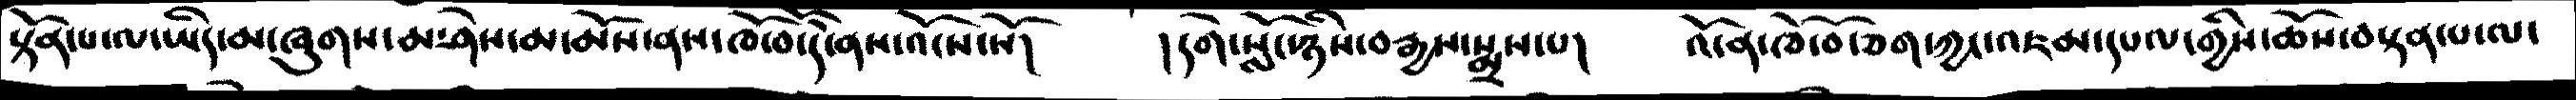སྟོན་པ་ལ་ཡིད་མ་ཞུགས་མ་ཤེས་མ་མོས་ནས་ཁོ་བོ་དེ་ནས་འོངས་སོ།   །དགེ་སློང་ཉིས་བརྒྱས་སྨྲས་པ།  འོ་ན་ཁོ་བོ་ཅག་ཀྱང་འཇམ་དཔལ་གྱིས་ཆོས་བསྟན་པ་ལ་
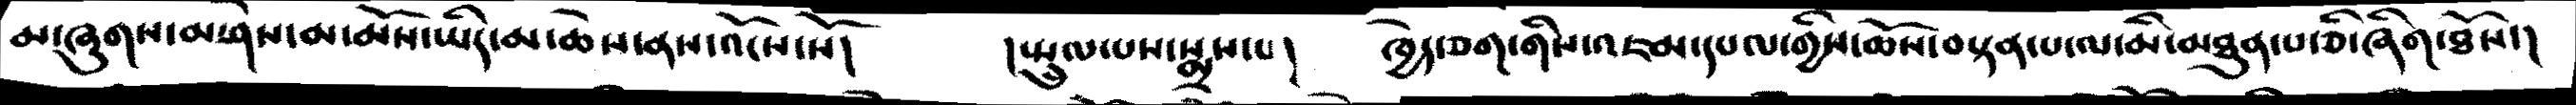མ་ཞུགས་མ་ཤེས་མ་མོས་ཡིད་མ་ཆེས་ནས་འོངས་སོ།  །སྤྲུལ་པས་སྨྲས་པ།  ཁྱེད་ཅག་གིས་འཇམ་དཔལ་གྱིས་ཆོས་བསྟན་པ་ལ་མི་མཐུན་པ་ཅི་ཞིག་ཐོས་།
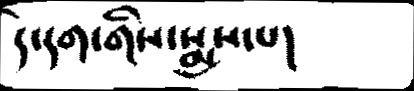དེ་དག་གིས་སྨྲས་པ།
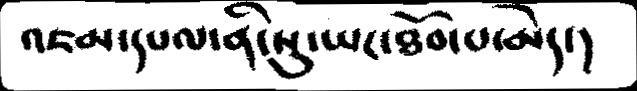འཇམ་དཔལ་ནི་སུ་ཡང་ཐོབ་པ་མེད་།
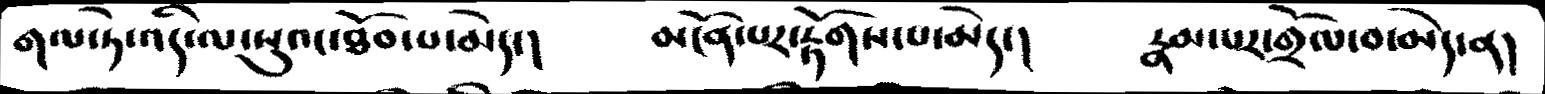གལ་ཏེ་འདི་ལ་སུའང་ཐོབ་པ་མེད་།    མངོན་པར་རྟོགས་པ་མེད་།   རྣམ་པར་གྲོལ་བ་མེད་ན།
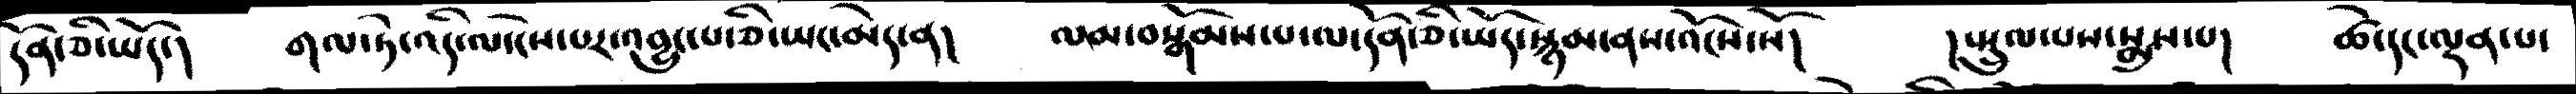དོན་ཅི་ཡོད་།  གལ་ཏེ་འདི་ལ་ངེས་པར་འབྱུང་པ་ཅི་ཡང་མེད་ན།  ལམ་བསྒོམས་པ་ལ་དོན་ཅི་ཡོད་སྙམ་ནས་འོངས་སོ།   །སྤྲུལ་པས་སྨྲས་པ།  ཚེ་དང་ལྡན་པ་
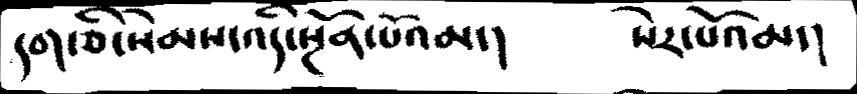དག་ཅི་སེམས་འདི་སྔོན་པོའམ་།  སེར་པོའམ་།
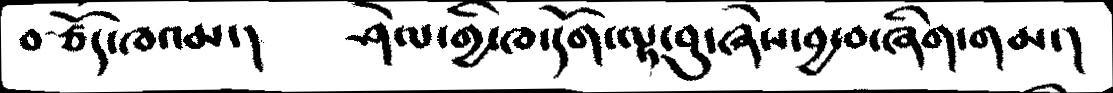བཙོད་ཁའམ་།    ཤེལ་གྱི་ཁ་དོག་ལྟ་བུ་ཞེས་བྱ་བ་ཞིག་གམ་།
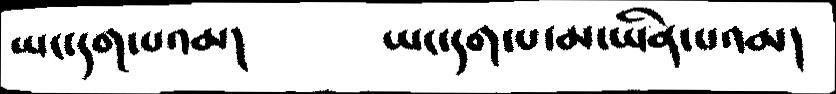ཡང་དག་པའམ།  ཡང་དག་པ་མ་ཡིན་པའམ།
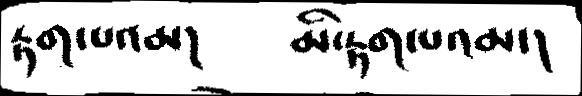རྟག་པའམ།  མི་རྟག་པའམ་།
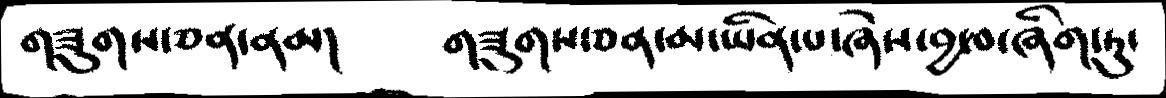གཟུགས་ཅན་ནམ།    གཟུགས་ཅན་མ་ཡིན་པ་ཞེས་བྱ་བ་ཞིག་ཏུ་
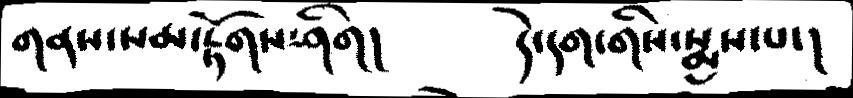གནམ་སམ་རྟོགས་ཤིག།    དེ་དག་གིས་སྨྲས་པ་།
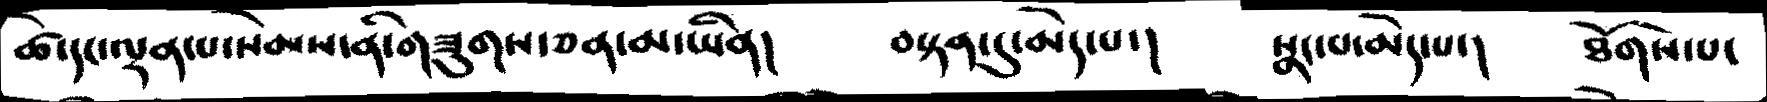ཚེ་དང་ལྡན་པ་སེམས་ནི་གཟུགས་ཅན་མ་ཡིན།  བསྟན་དུ་མེད་པ་།  སྣང་པ་མེད་པ།   ཐོགས་པ་
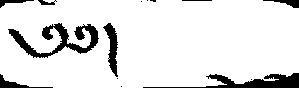༄༅།
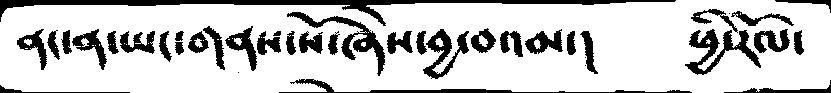ནང་ན་ཡང་གནས་པོ་ཞེས་བྱ་བའམ་།   ཕྱི་རོལ་
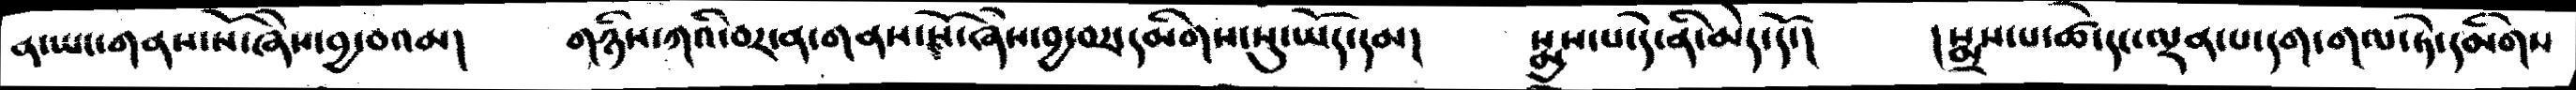ན་ཡང་གནས་སོ་ཞེས་བྱ་བའམ།   གཉིས་ཀའི་བར་ན་གནས་སོ་ཞེས་བྱ་བར་དམིགས་སུ་ཡོད་དམ།  སྨྲས་པ་དེ་ནི་མེད་དོ་།  །སྨྲས་པ་ཚེ་དང་ལྡན་པ་དག་གལ་ཏེ་དམིགས
